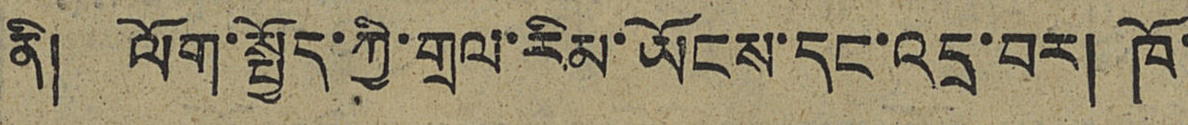ནི། ལོག་སྤྱོད་ཀྱི་གྲལ་རིམ་ཡོངས་དང་འདྲ་བར། ཁོ་
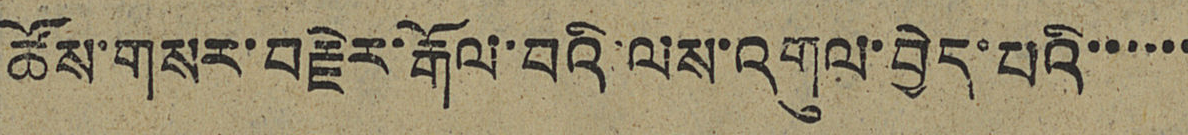ཚོས་གསར་བརྗེར་རྒོལ་བའི་ལས་འགུལ་བྱེད་པའི་་་་་་
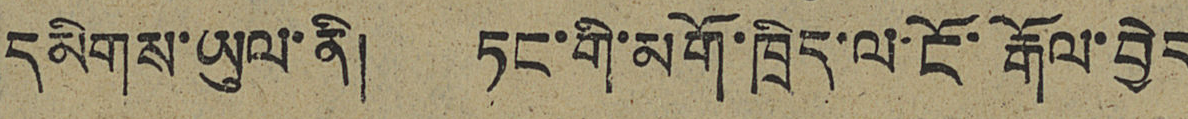དམིགས་ཡུལ་ནི། ཏང་གི་མགོ་ཁྲིད་ལ་ངོ་རྒོལ་བྱེད
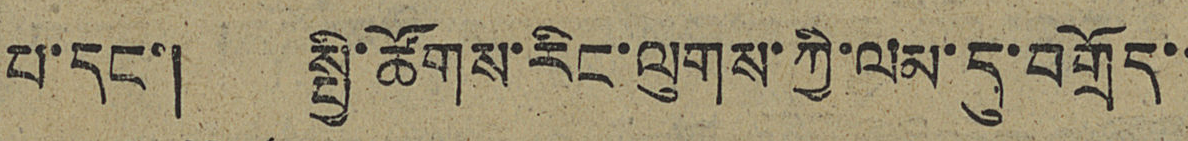པ་དང་། སྤྱི་ཚོགས་རིང་ལུགས་ཀྱི་ལམ་དུ་བགྲོད་
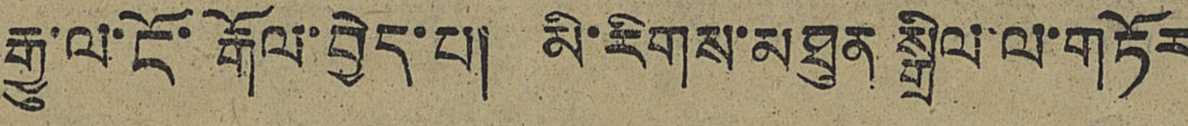རྒྱུ་ལ་ངོ་རྒོལ་བྱེད་པ། མི་རིགས་མཐུན སྒྲིལ་ལ་གཏོར
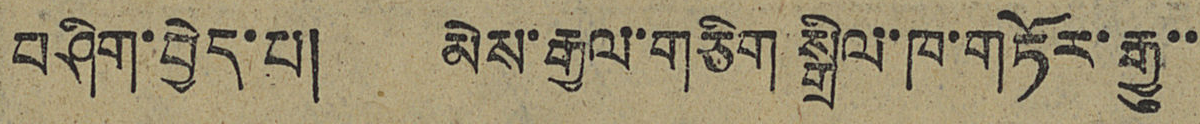བཤིག་བྱེད་པ། མེས་རྒྱལ་གཅིག་སྒྲིལ་ཁ་གཏོར་རྒྱུ་་
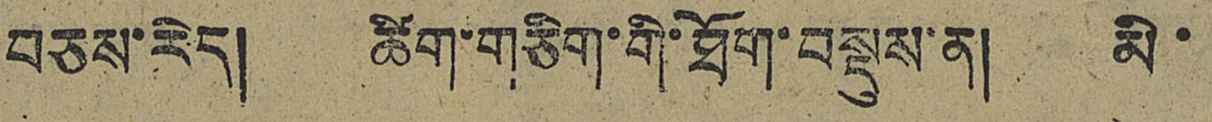བཅས་རེད། ཚིག་གཅིག་གི་ཐོག་བསྡུས་ན། མི་
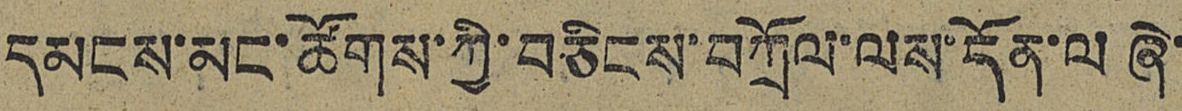དམངས་མང་ཚོགས་ཀྱི་བཅིངས་བཀྲོལ་ལས་དོན་ལ ཞེ་
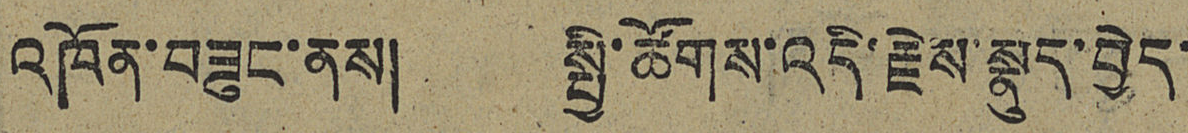འཁོན་བཟུང་ནས། སྤྱི་ཚོགས་འདི་རྗེས་སྣུད་བྱེད་
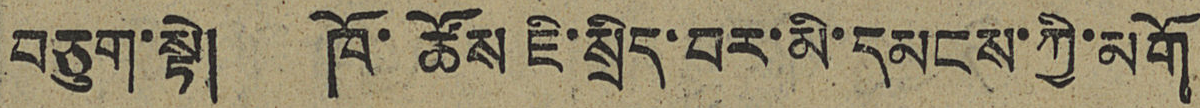བཅུག་སྟེ། ཁོ་ཚོས་ཇི་སྲིད་བར་མི་དམངས་ཀྱི་མགོ
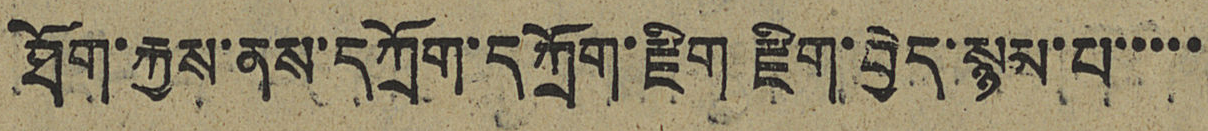ཐོག་རྐྱས་ནས་དཀྲོག་དཀྲོག་རྫིག རྫིག་བྱེད་སྙམ་པ་་་་་
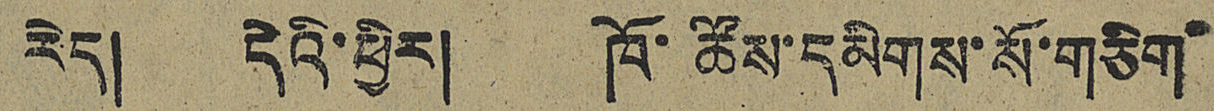རེད། དེའི་ཕྱིར། ཁོ་ཚོས་དམིགས་སོ་གཅིག་
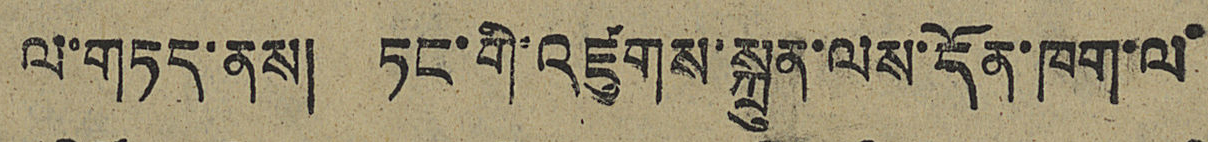ལ་གཏད་ནས། ཏང་གི་འཛུགས་སྐྲུན་ལས་དོན་ཁག་ལ་
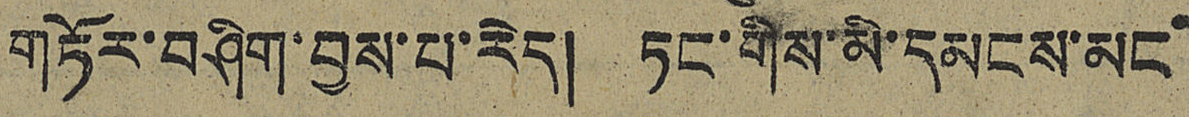གཏོར་བཤིག་བྱས་པ་རེད། ཏང་གིས་མི་དམངས་མང་
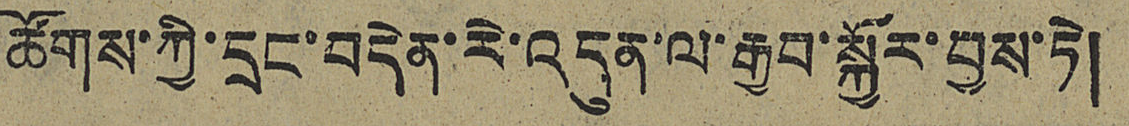ཚོགས་ཀྱི་དྲང་བདེན་རེ་འདུན་ལ་རྒྱབ་སྐྱོར་བྱས་ཏེ།
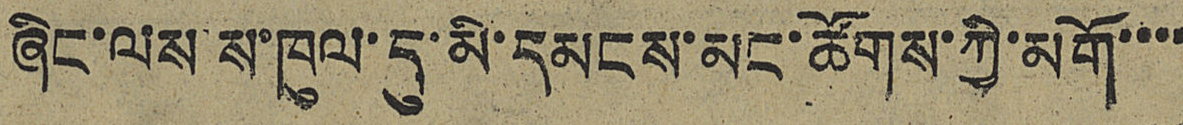ཞིང་ལས་ས་ཁུལ་དུ་མི་དམངས་མང་ཚོགས་ཀྱི་མགོ་་་་
